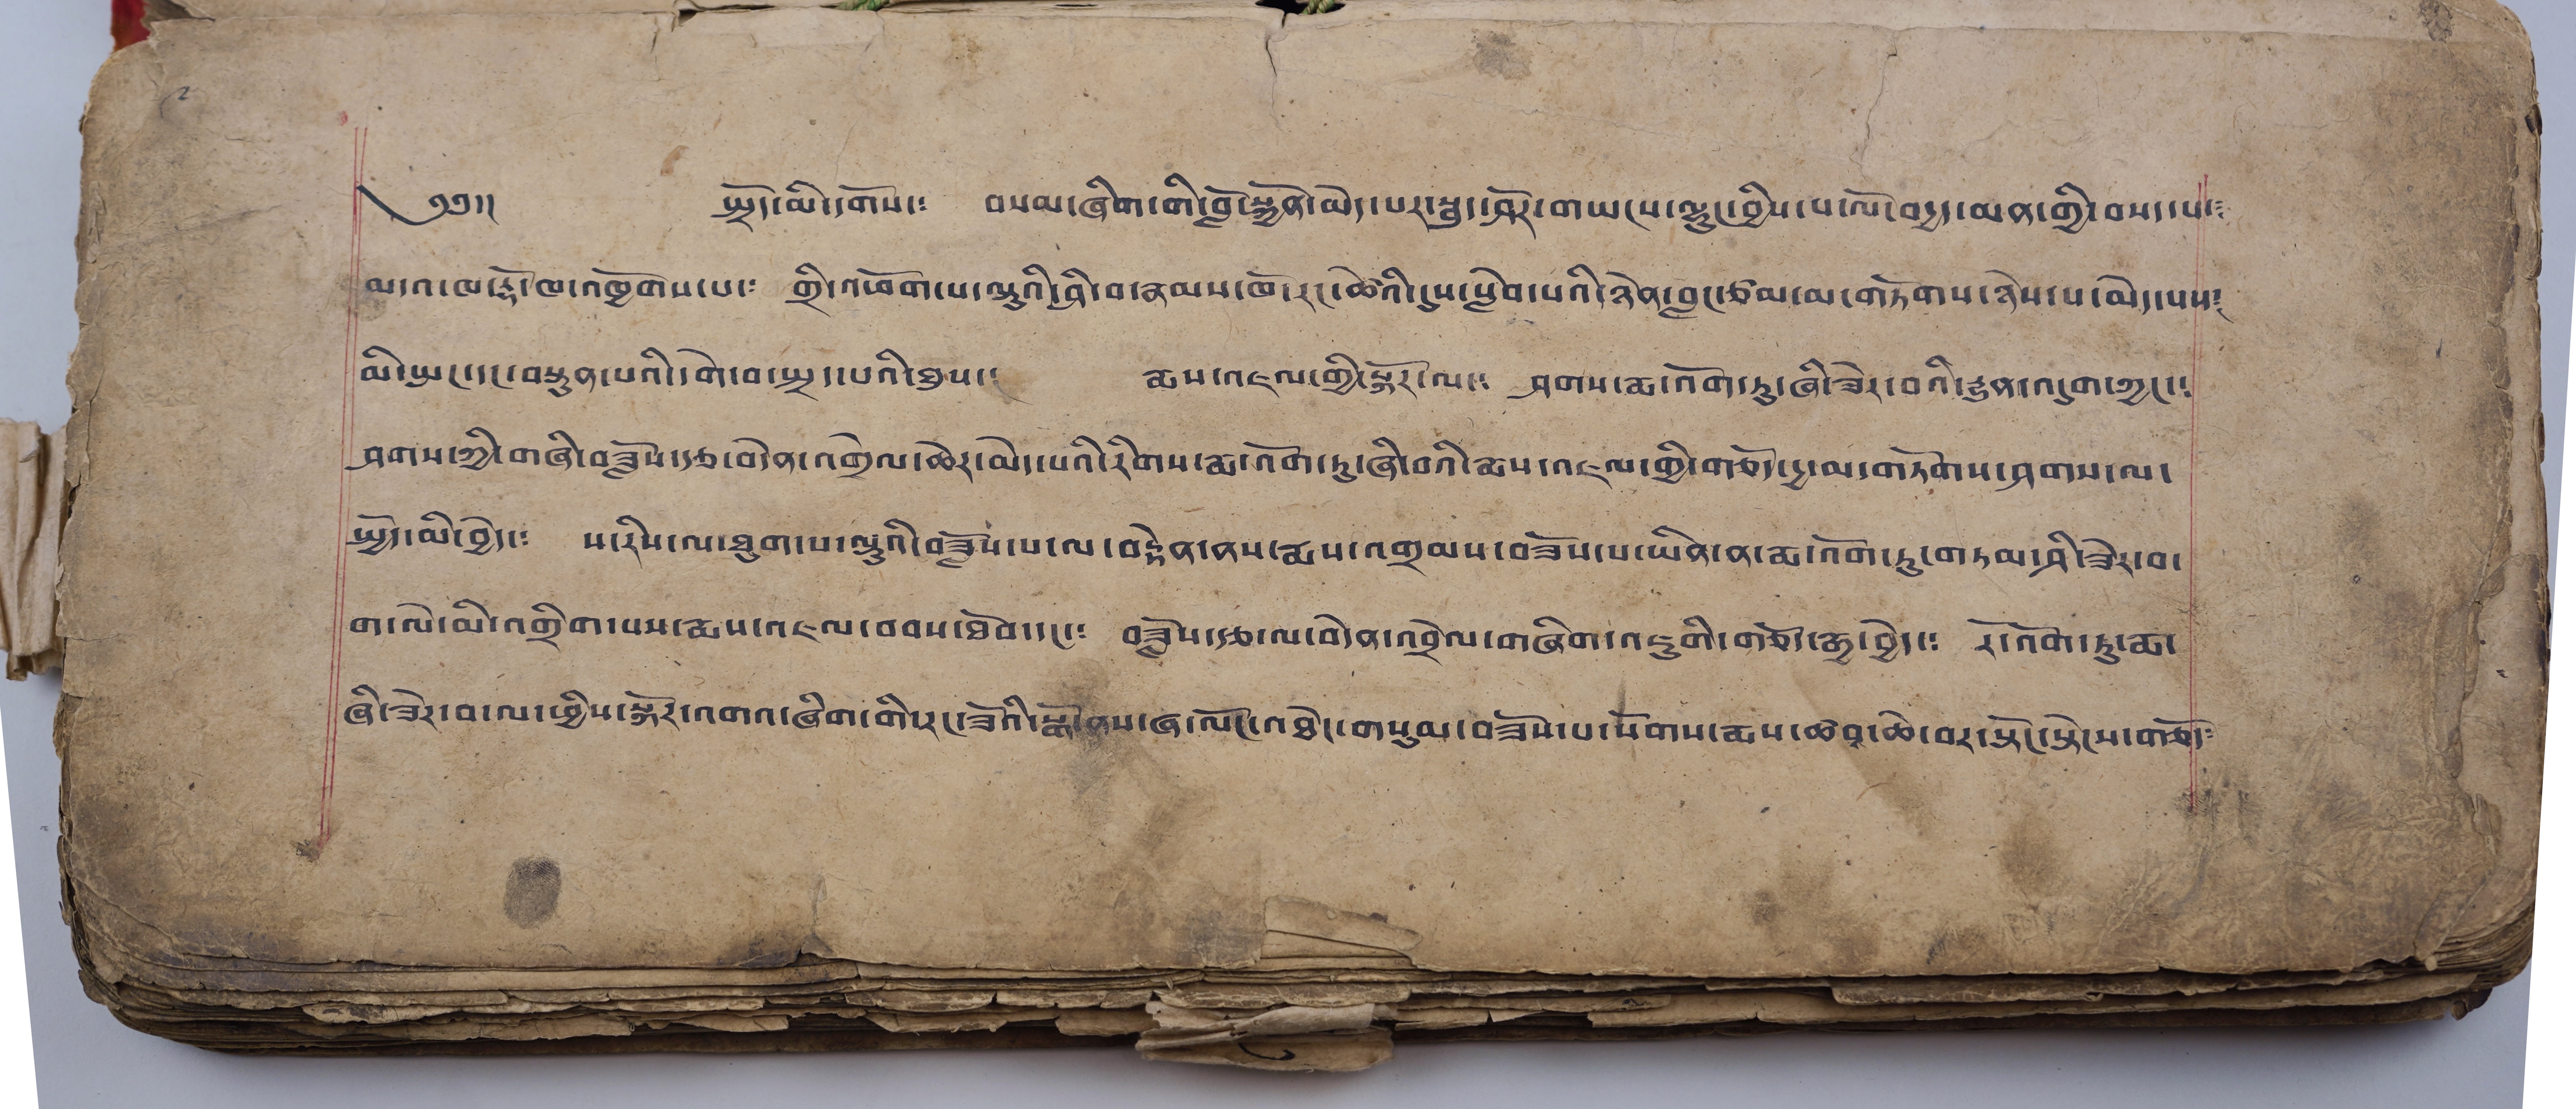༩
༄༅།། སྤྲོད་མི་དགོས་༴ བསམ་ཞིག་གི་བློ་སྐྱོན་མེད་པར་སྦུ་ཤོར་གཡངས་ལྷུང་བྱིས་པ་ལོ་བདྱད་མན་གྱི་བསད་པ་༴
མདའ་ཁ་རྟོ་ཁ་འཁྱོགས་པ་༴ གྲི་འཕོག་པ་ལྷུའི་ཤི་བ་རྣམས་ཁོ་རང་ཚེའི་དུས་སླེབ་པའི་ཉེན་བླང་ཙམ་མ་གཏོགས་ཉེས་པ་མེད་པས༴
མི་སྤང་དང་བསྟུན་པའི་དགེ་བ་སྤྲད་པའི་ཐུས་༴ རྨས་འཇལ་གྱི་སྐོར་ལ་༴ ཤགས་རྨ་འོག་ཏུ་ཞི་ཟེར་བའི་རྒྱུན་འདུག་ཀྱང་༴
ཤགས་ཀྱི་གཞི་བཟློས་རྩ་བདེན་འགྲེལ་ཆེར་མེད་པའི་རིགས་རྨ་འོག་ཏུ་ཞི་བའི་རྨས་འཇལ་གྱི་གཅོད་དྱ་མ་གཏོགས་ཤགས་ལ་
སྤྱོད་མི་བྱེད་༴ ས་རིས་ལ་ཐུག་པ་ལྷའི་བཟློས་པ་ལ་བརྟེན་ནས་རྨས་འགྲམས་བཟོས་པ་ཡིན་ན་རྨ་འོག་ཏུ་གཏམ་ཤི་ཟེར་བ་
ག་ལེ་མི་འགྲིག་པས་རྨས་འཇལ་བབས་ཐོབ་དང་༴ བཟློས་རྩ་ལ་བདེན་འབྲེལ་གཞིག་འཇུགི་གཅོད་རྒྱ་བྱེད་༴ རོ་འོག་ཏུ་རྨ་
ཞི་ཟེར་བ་ལ་ཕྱིས་སྐོར་འགའ་ཞིག་གི་རང་ཟོའི་སྒོ་ནས་ཞ་ལོང་འཐེང་གསུམ་བཟོས་པ་སོགས་ཚབས་ཆེ་བར་སྟོང་སྟེངས་གཅོད༴
